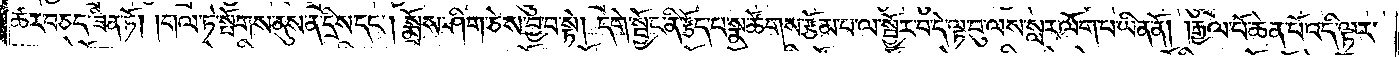ཚར་བཅད་ཟིན་ཏོ། །གལ་ཏེ་སྤོགས་ནུས་ན་དྲིས་དང༌། སྨྲོས་ཤིག་ཅེས་བྱ་བ་སྟེ། དགེ་སྦྱོང་ནི་རྩོད་པ་སྣ་ཚོགས་རྩོམ་པ་ལ་སྦྱོར་བ་དེ་ལྟ་བུ་ལས་སླར་ལོག་པ་ཡིན་ནོ། །རྒྱལ་པོ་ཆེན་པོ་འདི་ལྟར་
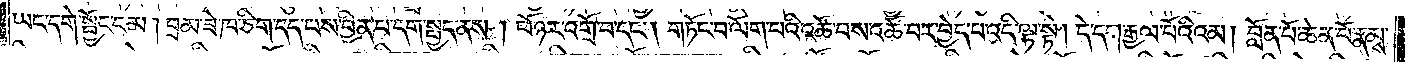ཡང་དགེ་སྦྱོང་ངམ། བྲམ་ཟེ་ཁ་ཅིག་དད་པས་བྱིན་པ་དག་སྤྱད་ནས། ཕོ་ཉར་འགྲོ་བ་དང༌། གཏོང་བ་ལོག་པའི་འཚོ་བས་འཚོ་བར་བྱེད་པ་འདི་ལྟ་སྟེ། དེ་དག་རྒྱལ་པོའི་འམ། བློན་པོ་ཆེན་པོ་རྣམས་
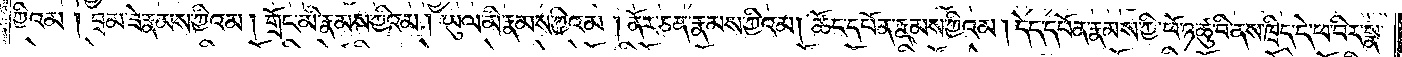ཀྱིའམ། བྲམ་ཟེ་རྣམས་ཀྱིའམ། གྲོང་མི་རྣམས་ཀྱིའམ། ཡུལ་མི་རྣམས་ཀྱིའམ། ནོར་ཅན་རྣམས་ཀྱིའམ། ཚོང་དཔོན་རྣམས་ཀྱིའམ། དེད་དཔོན་རྣམས་ཀྱི་ཕོ་ཉ་ཚུ་བི་ནས་ཁྲིད་དེ་ཕ་བིར་སྣ་
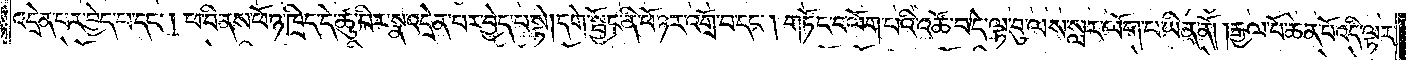འདྲེན་པར་བྱེད་པ་དང༌། ཕ་བི་ནས་ཕོ་ཉ་ཁྲིད་དེ་ཚུ་བིར་སྣ་འདྲེན་པར་བྱེད་པ་སྟེ། དགེ་སྦྱོང་ནི་ཕོ་ཉར་འགྲོ་བ་དང༌། གཏོང་བ་ལོག་པའི་འཚོ་བ་དེ་ལྟ་བུ་ལས་སླར་ལོག་པ་ཡིན་ནོ། །རྒྱལ་པོ་ཆེན་པོ་འདི་ལྟར་
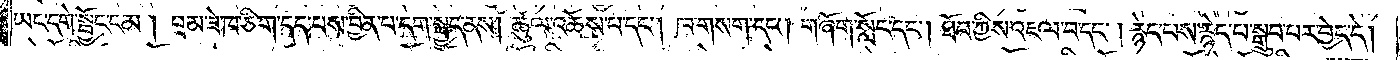ཡང་དགེ་སྦྱོང་ངམ། བྲམ་ཟེ་ཁ་ཅིག་དད་པས་བྱིན་པ་དག་སྤྱད་ནས། ཚུལ་འཆོས་པ་དང༌། ཁ་གསག་དང༌། གཞོག་སློང་དང༌། ཐོབ་ཀྱིས་འཇལ་བ་དང༌། རྙེད་པས་རྙེད་པ་སྒྲུབ་པར་བྱེད་དེ།
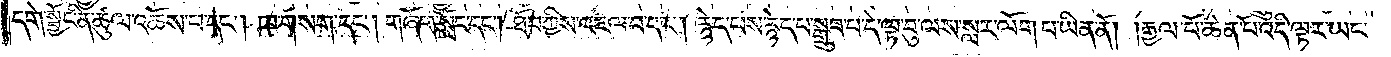དགེ་སྦྱོང་ནི་ཚུལ་འཆོས་པ་དང༌། ཁ་གསག་དང༌། གཞོག་སློང་དང༌། ཐོབ་ཀྱིས་འཇལ་བ་དང༌། རྙེད་པས་རྙེད་པ་སྒྲུབ་པ་དེ་ལྟ་བུ་ལས་སླར་ལོག་པ་ཡིན་ནོ། །རྒྱལ་པོ་ཆེན་པོ་འདི་ལྟར་ཡང་
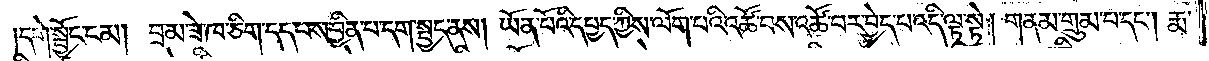དགེ་སྦྱོང་ངམ། བྲམ་ཟེ་ཁ་ཅིག་དད་པས་བྱིན་པ་དག་སྤྱད་ནས། ཡོན་པོའི་དཔྱད་ཀྱིས་ལོག་པའི་འཚོ་བས་འཚོ་བར་བྱེད་པ་འདི་ལྟ་སྟེ། གནམ་གྲུམ་པ་དང༌། རྨ་
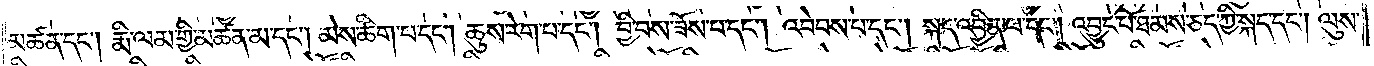མཚན་དང༌། རྨི་ལམ་གྱི་མཚན་མ་དང༌། མེས་ཚིག་པ་དང༌། ཆུས་རེག་པ་དང༌། བྱི་བས་ཟོས་པ་དང༌། འབེབས་པ་དང༌། སྐད་འབྱིན་པ་དང༌། འབྱུང་པོ་ཐམས་ཅད་ཀྱི་སྐད་དང༌། ལུས་
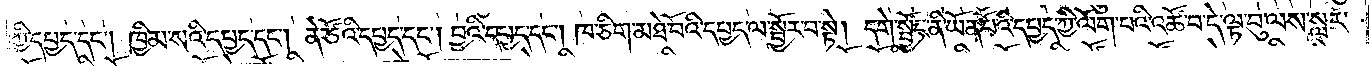ཀྱི་དཔྱད་དང༌། ཁྱིམ་སའི་དཔྱད་དང༌། ནེ་ཙོའི་དཔྱད་དང༌། བྱའི་དཔྱད་དང༌། ཁ་ཅིག་མཐེ་བོའི་དཔྱད་ལ་སྦྱོར་བ་སྟེ། དགེ་སྦྱོང་ནི་ཡོན་པོའི་དཔྱད་ཀྱི་ལོག་པའི་འཚོ་བ་དེ་ལྟ་བུ་ལས་སླར་
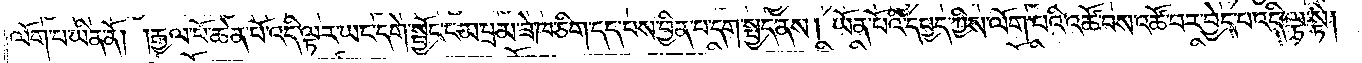ལོག་པ་ཡིན་ནོ། །རྒྱལ་པོ་ཆེན་པོ་འདི་ལྟར་ཡང་དགེ་སྦྱོང་ངམ་བྲམ་ཟེ་ཁ་ཅིག་དད་པས་བྱིན་པ་དག་སྤྱད་ནས། ཡོན་པོའི་དཔྱད་ཀྱིས་ལོག་པའི་འཚོ་བས་འཚོ་བར་བྱེད་པ་འདི་ལྟ་སྟེ།
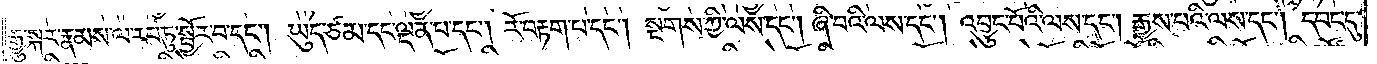རྒྱུ་སྐར་རྣམས་ལ་རབ་ཏུ་སྦྱོར་བ་དང༌། ཡུད་ཙམ་དང་ལྡན་པ་དང༌། རོ་བརྟག་པ་དང༌། སྔགས་ཀྱི་ལས་དང༌། ཞི་བའི་ལས་དང༌། འབྱུང་པོའི་ལས་དང༌། རྒྱས་པའི་ལས་དང༌། དབང་དུ་
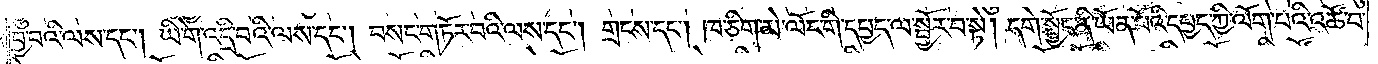བྱ་བའི་ལས་དང༌། ཡི་གེ་འདྲི་བའི་ལས་དང༌། བསང་གཏོར་བའི་ལས་དང༌། གྲངས་དང༌། ཁ་ཅིག་མེ་ལོང་གི་དཔྱད་ལ་སྦྱོར་བ་སྟེ། དགེ་སྦྱོང་ནི་ཡོན་པོའི་དཔྱད་ཀྱི་ལོག་པའི་འཚོ་བ་
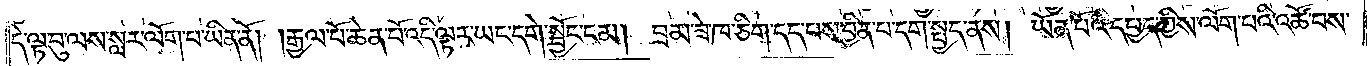དེ་ལྟ་བུ་ལས་སླར་ལོག་པ་ཡིན་ནོ། །རྒྱལ་པོ་ཆེན་པོ་འདི་ལྟར་ཡང་དགེ་སྦྱོང་ངམ། བྲམ་ཟེ་ཁ་ཅིག་དད་པས་བྱིན་པ་དག་སྤྱད་ནས། ཡོན་པོའི་དཔྱད་ཀྱིས་ལོག་པའི་འཚོ་བས་
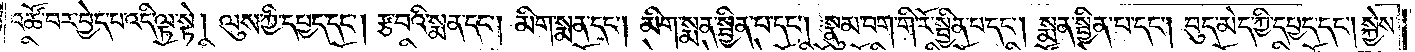འཚོ་བར་བྱེད་པ་འདི་ལྟ་སྟེ། ལུས་ཀྱི་དཔྱད་དང༌། རྩ་བའི་སྨན་དང༌། མིག་སྨན་དང༌། མིག་སྨན་སྦྱིན་པ་དང༌། སྣུམ་བག་གི་རོ་སྦྱིན་པ་དང༌། སྨན་སྦྱིན་པ་དང༌། བུད་མེད་ཀྱི་དཔྱད་དང༌། སྐྱེས་
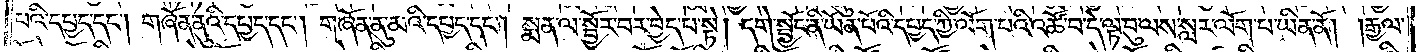པའི་དཔྱད་དང༌། གཞོན་ནུའི་དཔྱད་དང༌། གཞོན་ནུ་མའི་དཔྱད་དང༌། སྨན་ལ་སྦྱོར་བར་བྱེད་པ་སྟེ། དགེ་སྦྱོང་ནི་ཡོན་པོའི་དཔྱད་ཀྱི་ལོག་པའི་འཚོ་བ་དེ་ལྟ་བུ་ལས་སླར་ལོག་པ་ཡིན་ནོ། །རྒྱལ་
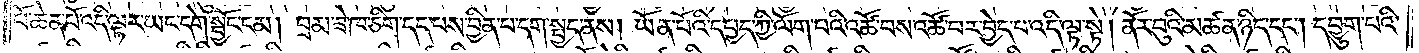པོ་ཆེན་པོ་འདི་ལྟར་ཡང་དགེ་སྦྱོང་ངམ། བྲམ་ཟེ་ཁ་ཅིག་དད་པས་བྱིན་པ་དག་སྤྱད་ནས། ཡོན་པོའི་དཔྱད་ཀྱི་ལོག་པའི་འཚོ་བས་འཚོ་བར་བྱེད་པ་འདི་ལྟ་སྟེ། ནོར་བུའི་མཚན་ཉིད་དང༌། དབྱུག་པའི་
